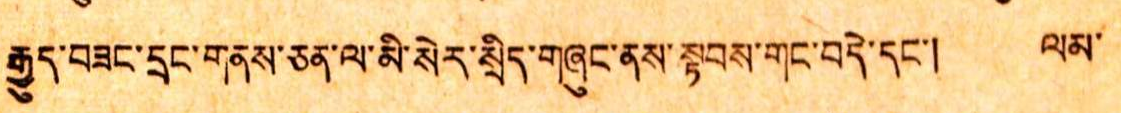རྒྱུད་བཟང་དྲང་གནས་ཅན་ལ་མི་སེར་སྲིད་གཞུང་ནས་སྟབས་གང་བདེ་དང་། ལམ་
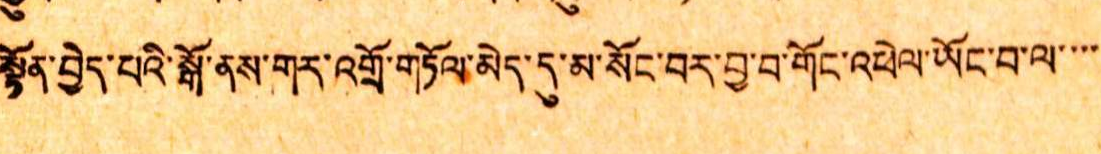སྟོན་བྱེད་པའི་སྒོ་ནས་གར་འགྲོ་གཏོལ་མེད་དུ་མ་སོང་བར་བྱ་བ་གོང་འཕེལ་ཡོང་བ་ལ་་་་
